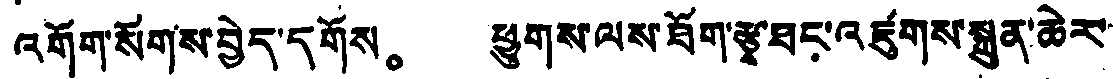འགོག་སོགས་བྱེད་དགོས。 ཕྱུགས་ལས་ཐོག་རྩྭ་ཐང་འཛུགས་སྐྲུན་ཆེར་
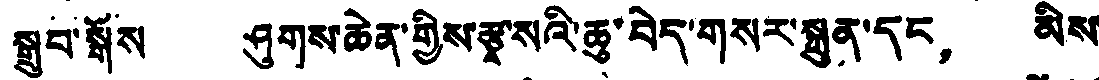སྒྲུབ་སྒོས ཤུགས་ཆེན་གྱིས་རྩྭ་སའི་ཆུ་བེད་གསར་སྐྲུན་དང， མིས་
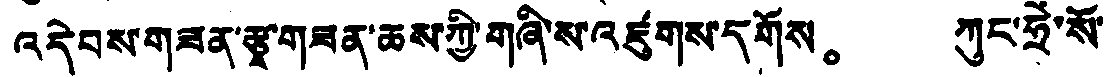འདེབས་གཟན་རྩྭ་གཟན་ཆས་ཀྱི་གཞི་ས་འཛུགས་དགོས。 ཀུང་ཧྲེ་སོ་
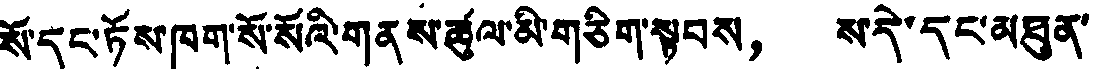སོ་དང་ཏོས་ཁག་སོ་སོའི་གནས་ཚུལ་མི་གཅིག་སྟབས， ས་དེ་དང་མཐུན་
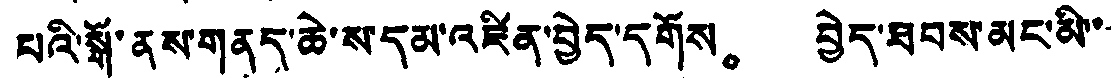པའི་སྒོ་ནས་གནད་ཆེ་ས་དམ་འཛིན་བྱེད་དགོས。 བྱེད་ཐབས་མང་མི་་
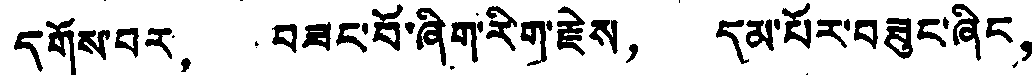དགོས་པར， བཟང་བོ་ཞིག་རིག་རྗེས， དམ་པོར་བཟུང་ཞིང，
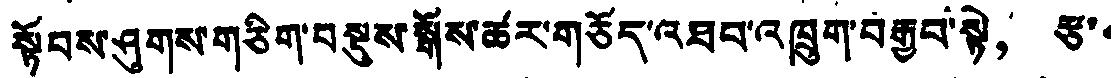སྟོབས་ཤུགས་གཅིག་བསྡུས་སྒོས་ཚར་གཅོད་འཐབ་འཁྲུག་བརྒྱབ་སྟེ， རྩ་་
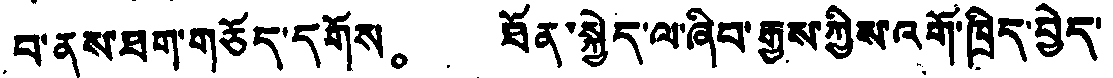བ་ནས་ཐག་གཅོད་དགོས。 ཐོན་སྐྱེད་ལ་ཞིབ་རྒྱས་ཀྱིས་འགོ་ཁྲིད་བྱེད་
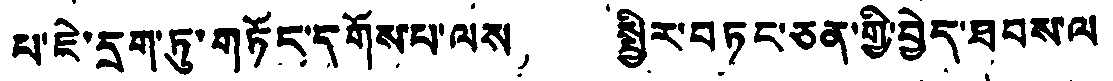པ་ཇེ་དྲག་ཏུ་གཏོང་དགོས་པ་ལས， སྤྱིར་བཏང་ཅན་གྱི་བྱེད་ཐབས་ལ
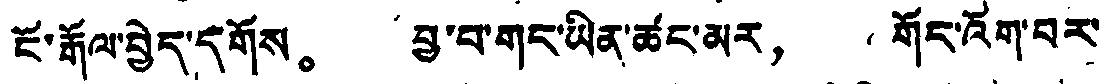ངོ་རྒོལ་བྱེད་དགོས。 བྱ་བ་གད་ཡིན་ཚང་མར， གོང་འོག་བར་
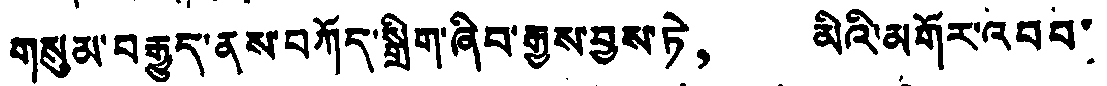གསུམ་བརྒྱུད་ནས་བཀོད་སྒྲིག་ཞིབ་རྒྱས་བྱས་ཏེ， མིའི་མགོར་འབབ་
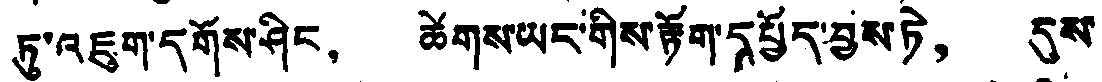ཏུ་འཇུག་དགོས་ཤིང， ཚེགས་ཡང་གིས་རྟོག་དཔྱོད་བྱས་ཏེ， དུས་
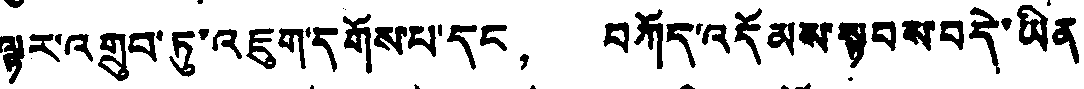ལྟར་འགྲུབ་ཏུ་འཇུག་དགོས་པ་དང， བཀོད་འདོམས་སྟབས་བདེ་ཡིན
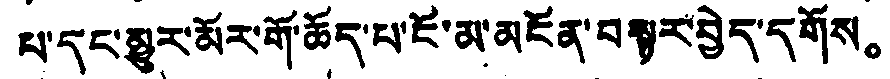པ་དང་མྱུར་མོར་གོ་ཆོད་པ་ངོ་མ་མངོན་བསྟར་བྱེད་དགོས。
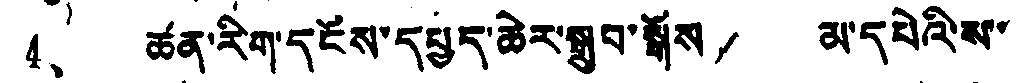4、 ཚན་རིག་དངོས་དཔྱད་ཆེར་སྒྲུབ་སྒོས， མ་དཔེའི་ས་
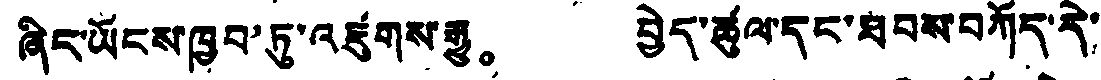ཞིང་ཡོངས་ཁྱབ་ཏུ་འཛུགས་རྒྱུ。 བྱེད་ཚུལ་དང་ཐབས་བཀོད་རེ་
